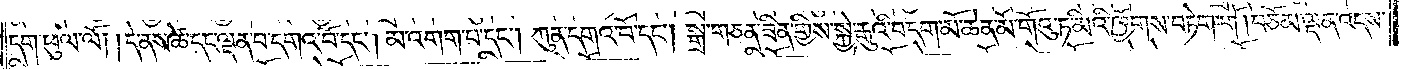དག་ཕུལ་ལོ། །དེ་ནས་ཚེ་དང་ལྡན་པ་དགའ་བོ་དང༌། མ་འགག་པ་དང༌། ཀུན་དགའ་བོ་དང༌། སྒྲ་གཅན་ཟིན་གྱིས་སྐྱེ་རྒུའི་བདག་མོ་ཆེན་མོ་གོའུ་ཏ་མིའི་ཁྱོགས་བཏེག་གོ །བཅོམ་ལྡན་འདས་
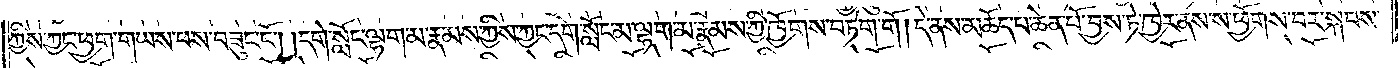ཀྱིས་ཀྱང་ཕྱག་གཡས་པས་བཟུང་ངོ༌། །དགེ་སློང་ལྷག་མ་རྣམས་ཀྱིས་ཀྱང་དགེ་སློང་མ་ལྷག་མ་རྣམས་ཀྱི་ཁྱོགས་བཏེག་གོ །དེ་ནས་མཆོད་པ་ཆེན་པོ་བྱས་ཏེ་ཁྱེར་ནས་ས་ཕྱོགས་བར་སྐབས་
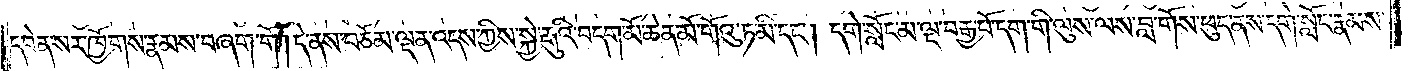དབེན་སར་ཁྱོགས་རྣམས་བཞག་གོ །དེ་ནས་བཅོམ་ལྡན་འདས་ཀྱིས་སྐྱེ་རྒུའི་བདག་མོ་ཆེན་མོ་གོའུ་ཏ་མི་དང༌། དགེ་སློང་མ་ལྔ་བརྒྱ་པོ་དག་གི་ལུས་ལས་བླ་གོས་ཕུད་ནས་དགེ་སློང་རྣམས་
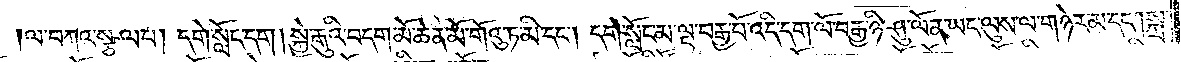ལ་བཀའ་སྩལ་པ། དགེ་སློང་དག། སྐྱེ་རྒུའི་བདག་མོ་ཆེན་མོ་གོའུ་ཏ་མི་དང༌། དགེ་སློང་མ་ལྔ་བརྒྱ་པོ་འདི་དག་ལོ་བརྒྱ་ཉི་ཤུ་ལོན་ཡང་ལུས་ལ་གཉེར་མ་དང༌། སྐྲ་
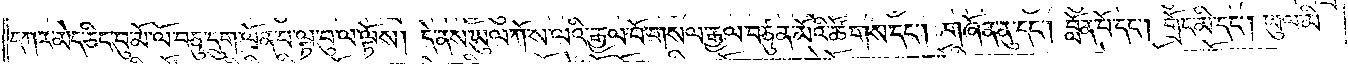དཀར་མེད་ཅིང་བུ་མོ་ལོ་བཅུ་དྲུག་ལོན་པ་ལྟ་བུ་ལ་ལྟོས། དེ་ནས་ཡུལ་ཀོ་ས་ལའི་རྒྱལ་པོ་གསལ་རྒྱལ་བཙུན་མོའི་ཚོགས་དང༌། གཞོན་ནུ་དང༌། བློན་པོ་དང༌། གྲོང་མི་དང༌། ཡུལ་མི་
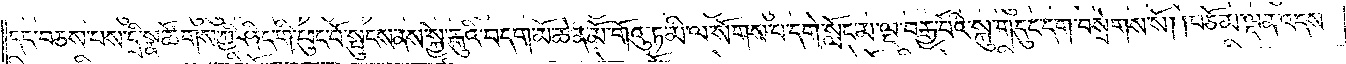དང་བཅས་པས་དྲི་སྣ་ཚོགས་ཀྱི་ཤིང་གི་ཕུང་པོ་སྤུངས་ནས་སྐྱེ་རྒུའི་བདག་མོ་ཆེན་མོ་གོའུ་ཏ་མི་ལ་སོགས་པ་དགེ་སློང་མ་ལྔ་བརྒྱ་པོའི་སྐུ་གདུང་དག་བསྲེགས་སོ། །བཅོམ་ལྡན་འདས་
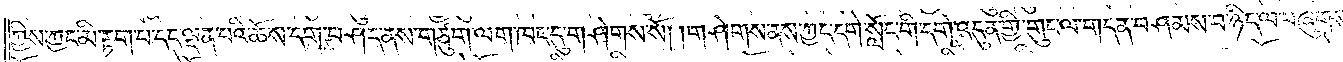ཀྱིས་ཀྱང་མི་རྟག་པ་དང་ལྡན་པའི་ཆོས་དག་བཤད་ནས་གཙུག་ལག་ཁང་དུ་གཤེགས་སོ། །གཤེགས་ནས་ཀྱང་དགེ་སློང་གི་དགེ་འདུན་གྱི་གུང་ལ་གདན་བཤམས་པ་ཉིད་ལ་བཞུགས་
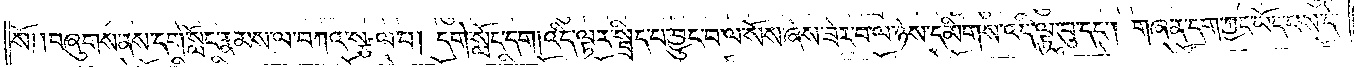སོ། །བཞུགས་ནས་དགེ་སློང་རྣམས་ལ་བཀའ་སྩལ་པ། དགེ་སློང་དག། འདི་ལྟར་སྦྲིད་པ་བྱུང་བ་ལ་སོས་ཞེས་ཟེར་བ་ལ་ཉེས་དམིགས་འདི་ལྟ་བུ་དང༌། གཞན་དག་ཀྱང་ཡོད་པས་དེ་
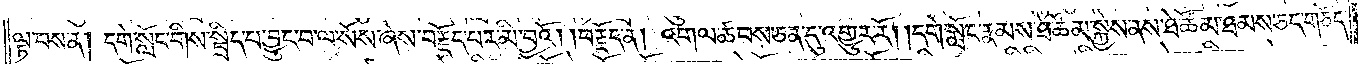ལྟ་བས་ན། དགེ་སློང་གིས་སྦྲིད་པ་བྱུང་བ་ལ་སོས་ཞེས་བརྗོད་པར་མི་བྱའོ། །བརྗོད་ན། འགལ་ཚབས་ཅན་དུ་འགྱུར་རོ། །དགེ་སློང་རྣམས་ཐེ་ཚོམ་སྐྱེས་ནས་ཐེ་ཚོམ་ཐམས་ཅད་གཅོད་
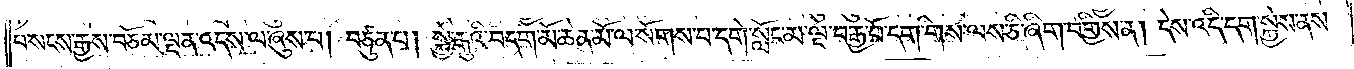པ་སངས་རྒྱས་བཅོམ་ལྡན་འདས་ལ་ཞུས་པ། བཙུན་པ། སྐྱེ་རྒུའི་བདག་མོ་ཆེན་མོ་ལ་སོགས་པ་དགེ་སློང་མ་ལྔ་བརྒྱ་པོ་དག་གིས་ལས་ཅི་ཞིག་བགྱིས་ན། དེས་འདི་དག་སྐྱེས་ནས་
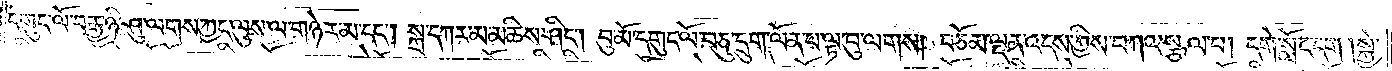དགུང་ལོ་བརྒྱ་ཉི་ཤུ་ལགས་ཀྱང་ལུས་ལ་གཉེར་མ་དང༌། སྐྲ་དཀར་མ་མཆིས་ཤིང༌། བུ་མོ་དགུང་ལོ་བཅུ་དྲུག་ལོན་པ་ལྟ་བུ་ལགས། བཅོམ་ལྡན་འདས་ཀྱིས་བཀའ་སྩལ་པ། དགེ་སློང་དག །སྐྱེ་
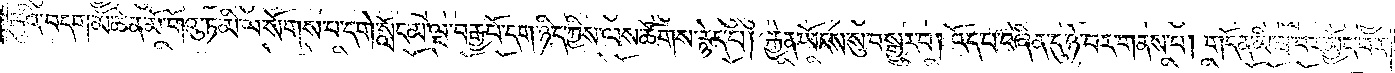རྒུའི་བདག་མོ་ཆེན་མོ་གོའུ་ཏ་མི་ལ་སོགས་པ་དགེ་སློང་མ་ལྔ་བརྒྱ་པོ་དག་ཉིད་ཀྱིས་ལས་ཚོགས་རྙེད་པ། རྐྱེན་ཡོངས་སུ་བསྒྱུར་བ། འོད་པ་བཞིན་དུ་ཉེ་བར་གནས་པ། གདོན་མི་ཟ་བར་མྱོང་བར་
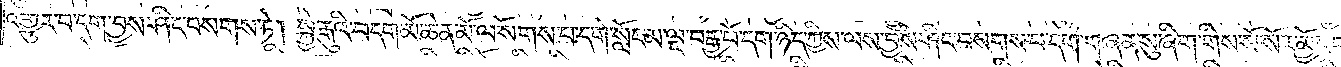འགྱུར་བ་དག་བྱས་ཤིང་བསགས་ཏེ། སྐྱེ་རྒུའི་བདག་མོ་ཆེན་མོ་ལ་སོགས་པ་དགེ་སློང་མ་ལྔ་བརྒྱ་པོ་དག་ཉིད་ཀྱིས་ལས་བྱས་ཤིང་བསགས་པ་དག་གཞན་སུ་ཞིག་གིས་སོ་སོར་མྱོང་བར་
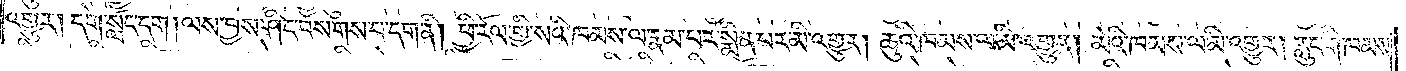འགྱུར། དགེ་སློང་དག། ལས་བྱས་ཤིང་བསགས་པ་དག་ནི། ཕྱི་རོལ་གྱི་སའི་ཁམས་ལ་རྣམ་པར་སྨིན་པར་མི་འགྱུར། ཆུའི་ཁམས་ལ་མི་འགྱུར། མེའི་ཁམས་ལ་མི་འགྱུར། རླུང་གི་ཁམས་
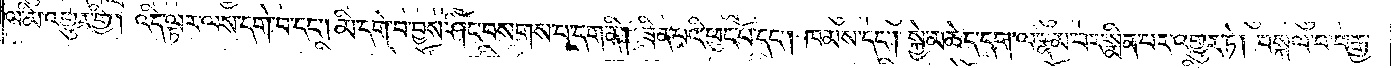ལ་མི་འགྱུར་གྱི། འདི་ལྟར་ལས་དགེ་བ་དང༌། མི་དགེ་བ་བྱས་ཤིང་བསགས་པ་དག་ནི། ཟིན་པའི་ཕུང་པོ་དང༌། ཁམས་དང༌། སྐྱེ་མཆེད་དག་ལ་རྣམ་པར་སྨིན་པར་འགྱུར་ཏེ། བསྐལ་པ་བརྒྱ་
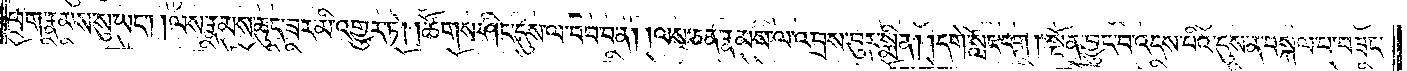ཕྲག་རྣམས་སུ་ཡང༌། །ལས་རྣམས་ཆུད་ཟར་མི་འགྱུར་ཏེ། །ཚོགས་ཤིང་དུས་ལ་བབ་བ་ན། །ལས་ཅན་རྣམས་ལ་འབྲས་བུར་སྨིན། །དགེ་སློང་དག། །སྔོན་བྱུང་བ་འདས་པའི་དུས་ན་བསྐལ་པ་བཟང་
